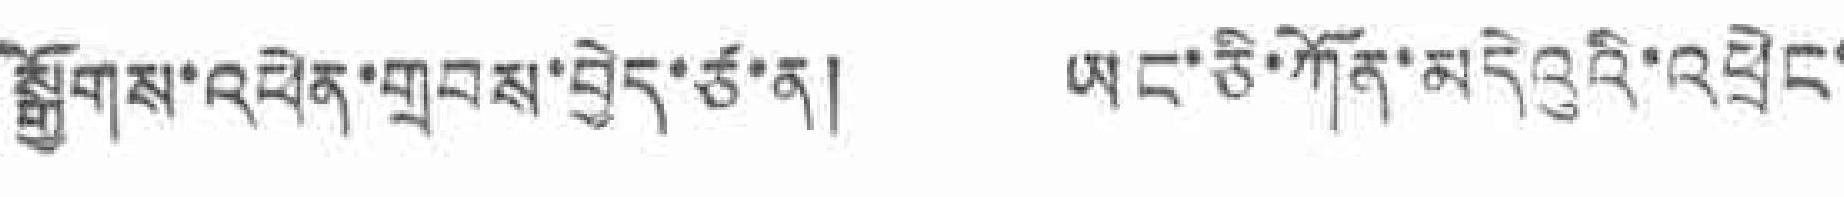སྒྱོགས་འཕེན་གྲབས་བྱེད་ཙ་ན། ཡང་ཅི་ཀོན་མདེའུའི་འཕྲེང་
